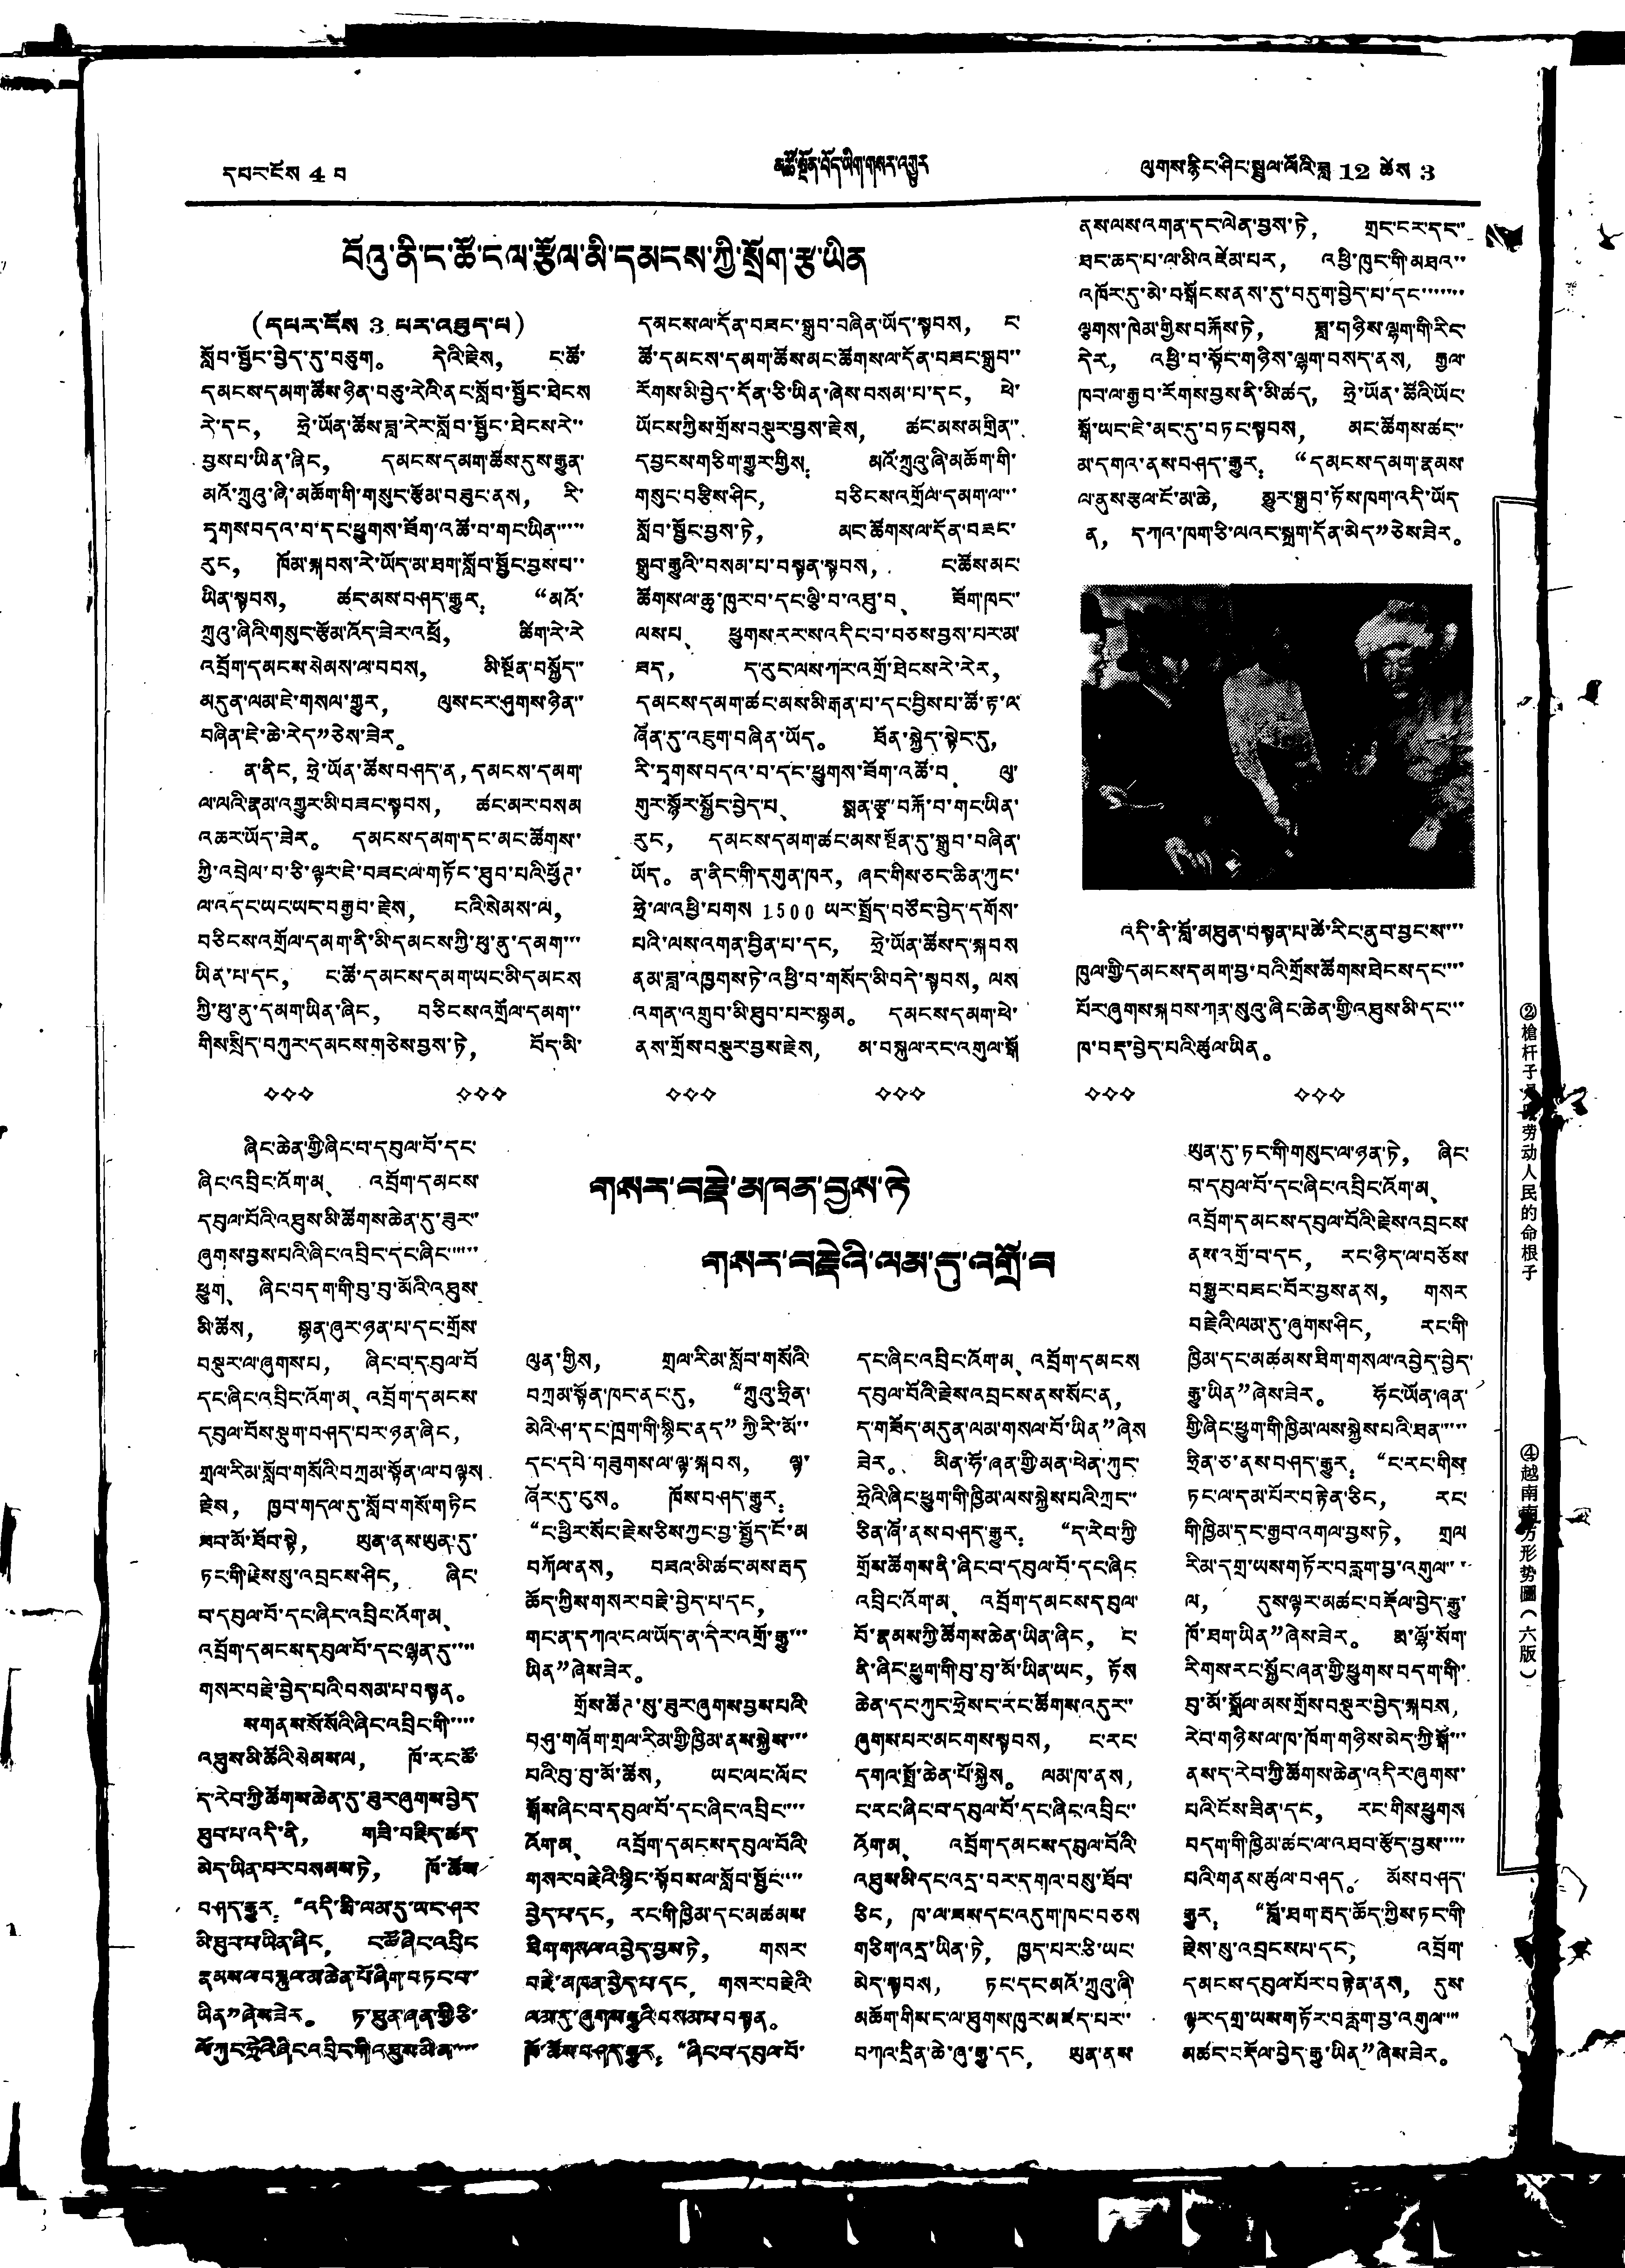དཔར་ངོས 4 པ མཆོ་སྔོན་བོད་ཡིག་གསར་འགྱུར ལུགས་རྙིང་ཤིང་སྦྲུལ་ལོའི་ཟླ 12 ཚེས 3
བོའུ་ནི་ང་ཚོ་ངལ་རྩོལ་མི་དམངས་ཀྱི་སྲོག་རྩ་ཡིན
(དཔར་ངོས 3 པར་འཐུད་ལ)
སློབ་སྦྱོང་བྱེད་དུ་བཅུག。 དེའི་རྗེས， ང་ཚོ་
དམངས་དམག་ཚོས་ཉིན་བཅུ་རེའི་ནང་སློབ་སྦྱོང་ཐེངས
རེ་དང， ཧྲེ་ཡོན་ཚོས་ཟླ་རེར་སློབ་སྦྱོང་ཐེངས་རེ་་
བྱས་པ་ཡིན་ཞིང， དམངས་དམག་ཚོས་དུས་རྒྱུན་
མའོ་ཀྲུའུ་ཞི་མཆོག་གི་གསུང་རྩོམ་བཟུང་ནས， རི་
དྭགས་བདའ་བ་དང་ཕྱུགས་ཟོག་འཚོ་བ་གང་ཡིན་་་་་
རུང， ཁོམ་སྐབས་རེ་ཡོད་མ་ཐག་སློབ་སྦྱོང་བྱས་པ་་
ཡིན་སྟབས， ཚང་མས་བཤད་རྒྱུར： “མའོ་
ཀྲུའུ་ཞིའི་གསུང་རྩོམ་འོད་ཟེར་འཕྲོ， ཚིག་རེ་རེ་
འབྲོག་དམངས་སེམས་ལ་བབས， མི་སྔོན་བསྐྱོད་་
མདུན་ལམ་ཇེ་གསལ་གྱུར， ལུས་ངར་ཤུགས་ཉིན་
བཞིན་ཇེ་ཆེ་རེད”ཅེས་ཟེར。
ན་ནིང，ཧྲེ་ཡོན་ཚོས་བཤད་ན，དམངས་དམག་
ལ་ལའི་རྣམ་འགྱུར་མི་བཟང་སྟབས， ཚང་མར་བསམ
འཆར་ཡོད་ཟེར。 དམངས་དམག་དང་མང་ཚོགས་་
ཀྱི་འབྲེལ་བ་ཅི་ལྟར་ཇེ་བཟང་ལ་གཏོང་ཐུབ་པའི་ཕྱོཊ་
ལ་འདང་ཡང་ཡང་བརྒྱབ་རྗེས， ངའི་སེམས་ལ，
བཅིངས་འགྲོལ་དམག་ནི་མི་དམངས་ཀྱི་ཕུ་ནུ་དམག་་་
ཡིན་པ་དང， ང་ཚོ་དམངས་དམག་ཡང་མི་དམངས
ཀྱི་ཕུ་ནུ་དམག་ཡིན་ཞིང， བཅིངས་འགྲོལ་དམག་་
གིས་སྲིད་བཀུར་དམངས་གཅེས་བྱས་ཏེ， བོད་མི་
དམངས་ལ་དོན་བཟང་སྒྲུབ་བཞིན་ཡོད་སྟབས， ང་
ཚོ་དམངས་དམག་ཚོས་མང་ཚོགས་ལ་དོན་བཟང་སྒྲུབ་་
རོགས་མི་བྱེད་དོན་ཅི་ཡིན་ཞེས་བསམ་པ་དང， ཕེ་
ཡོངས་ཀྱིས་གྲོས་བསྡུར་བྱས་རྗེས， ཚང་མས་མགྲིན་་
དབྱངས་གཅིག་གྱུར་གྱིས： མའོ་ཀྲུའུ་ཞི་མཆོག་གི་
གསུང་བརྩིས་ཤིང， བཅིངས་འགྲོལ་དམག་ལ་་་
སློབ་སྦྱོང་བྱས་ཏེ， མང་ཚོགས་ལ་དོན་བཟང་
སྒྲུབ་རྒྱུའི་བསམ་པ་བསྟན་སྟབས， ང་ཚོས་མང་
ཚོགས་ལ་ཆུ་ཁུར་བ་དང་ལྕི་བ་འཐུ་བ、 ཟོག་ཁང་་
ལས་པ、 ཕྱུགས་རར་ས་འདིང་བ་བཅས་བྱས་པར་མ་
ཟད， ད་རུང་ལས་ཀར་འགྲོ་ཐེངས་རེ་རེར，
དམངས་དམག་ཚང་མས་མི་རྒན་པ་དང་བྱིས་པ་ཚོ་རྟ་ལ་
ཞོན་དུ་འཇུག་བཞིན་ཡོད。 ཐོན་སྐྱེད་སྟེང་དུ，
རི་དྭགས་བདའ་བ་དང་ཕྱུགས་ཟོག་འཚོ་བ、 ལུ་
གུར་སྙོར་སྐྱོང་བྱེད་པ、 སྨན་རྩྭ་བརྐོ་བ་གང་ཡིན་
རུང， དམངས་དམག་ཚང་མས་སྔོན་དུ་སྒྲུབ་བཞིན་
ཡོད。 ན་ནིང་གི་དགུན་ཁར， ཞང་གིས་ཅང་ཆིན་ཀུང་
ཧྲེ་ལ་འཕྱི་པགས 1500 ཡར་སྤྲོད་བཙོང་བྱེད་དགོས་
པའི་ལས་འགན་བྱིན་པ་དང， ཧྲེ་ཡོན་ཚོས་ད་སྐབས།
ནམ་ཟླ་འཁྱགས་ཏེ་འཕྱི་བ་གསོད་མི་བདེ་སྟབས， ལས
འགན་འགྲུབ་མི་ཐུབ་པར་སྙམ。 དམངས་དམག་ཕེ་
ནས་གྲོས་བསྡུར་བྱས་རྗེས， མ་བསྐུལ་རང་འགུལ་སྒོ་
ནས་ལས་འགན་དང་ལེན་བྱས་ཏེ， གྲང་ངར་དང་་
ཐད་ཆད་པ་ལ་མི་འཛེམ་པར， འཕྱི་ཁུང་གི་མཐའ་་
འཁོར་དུ་མེ་བསྒོངས་ནས་དུ་བདུག་བྱེད་པ་དང་་་་་་་
ལྕགས་ཁེམ་གྱིས་བརྐོས་ཏེ， ཟླ་གཉིས་ལྷག་གི་རིང་
དེར， འཕྱི་བ་སྟོང་གཉིས་ལྷག་བསད་ནས， རྒྱལ་
ཁབ་ལ་རྒྱབ་རོགས་བྱས་ནི་མི་ཚད， ཧྲེ་ཡོན་ཚོའི་ཡོང་
སྒོ་ཡང་ཇེ་མང་དུ་བཏང་སྟབས， མང་ཚོགས་ཚང་་
མ་དགའ་ནས་བཤད་རྒྱུར： “དམངས་དམག་རྣམས་
ལ་ནུས་རྩལ་ངོ་མ་ཆེ， མྱུར་སྒྲུབ་ཏོས་ཁག་འདི་ཡོད
ན， དཀའ་ཁག་ཅི་ལའང་སྐྲག་དོན་མེད”ཅེས་ཟེར。
འདི་ནི་བློ་མཐུན་བསྟན་པ་ཚེ་རིང་ནུབ་བྱང་ས་་་་
ཁུལ་གྱི་དམངས་དམག་བྱ་བའི་གྲོས་ཚོགས་ཐེངས་དང་་་་
པོར་ཞུགས་སྐབས་ཀན་སུའུ་ཞིང་ཆེན་གྱི་འཐུས་མི་དང་་་
ཁ་བརྡ་བྱེད་པའི་ཚུལ་ཡིན。
གསར་བརྗེ་མཁན་བྱས་ཏེ
གསར་བརྗེའི་ལམ་དུ་འགྲོ་བ
ཞིང་ཆེན་གྱི་ཞིང་པ་དབུལ་བོ་དང་
ཞིང་འབྲིང་འོག་མ、 འབྲོག་དམངས་
དབུལ་བོའི་འཐུས་མ་ཚོགས་ཆེན་དུ་ཟུར་་
ཞུགས་བྱས་པའི་ཞིང་འབྲིང་དང་ཞིང་་་་་་
ཕྱུག、 ཞིང་བདག་གི་བུ་བུ་མོའི་འཐུས་
མི་ཚོས， སྙན་ཞུར་ཉན་པ་དང་གྲོས་
བསྡུར་ལ་ཞུགས་པ， ཞིང་བ་དབུལ་བོ་
དང་ཞིང་འབྲིང་འོག་མ、 འབྲོག་དམངས་
དབུལ་བོས་སྡུག་བཤད་པར་ཉན་ཞིང，
གྲལ་རིམ་སློབ་གསོའི་བཀྲམ་སྟོན་ལ་བལྟས
རྗེས， ཁྱབ་གདལ་དུ་སློབ་གསོ་གཏིང
ཟབ་མོ་ཐོབ་སྟེ， ཡུན་ནས་ཡུན་དུ་
ཏང་གི་རྗེསསུ་འབྲངས་ཤིང， ཞིང་
བ་དབུལ་བོ་དང་ཞིང་འབྲིང་འོག་མ、
འབྲོག་དམངས་དབུལ་བོ་དང་ལྷན་དུ་་་་
གསར་བརྗེ་བྱེད་པའི་བསམ་པ་བསྟན。
ས་གནས་སོ་སོའི་ཞིང་འབྲིང་གི་་་་་
འཐུས་མི་ཚོའི་སེམས་ལ， ཁོ་རང་ཚོ་
ད་རེབ་ཀྱི་ཚོགས་ཆེན་དུ་ཟུར་ཞུགས་བྱེད་
ཐུབ་པ་འདི་ནི， གཟི་བརྗིད་ཚད་
མེད་ཡིན་པར་བསམས་ཏེ， ཁོ་ཚོས
བཤད་རྒྱུར： “འདི་མི་ལམ་དུ་ཡང་ཤར་
མི་ཐུབ་པ་ཡིན་ཞིང， ང་ཚོ་ཞིང་འབྲིང
རྣམས་ལབསྣལམ་ཆེན་པོ་ཞིག་བཏང་བ་
ཡིན”ཞེས་ཟེར。 ཏ་ཐུན་ཞན་གྱི ཅི་
ལོ་ཀུང་ཧྲེའི་ཞིང་འབྲིང་གི་འཐུས་མི་མ་་་་
ལུན་གྱིས， གྲལ་རིམ་སློབ་གསོའི་
བཀྲམ་སྟོན་ཁང་ནང་དུ， “ཀྲུའུ་ཧྲིན་
མེའི་ཤ་དང་ཁྲག་གི་སྙིང་ནད” ཀྱི་རི་མོ་་
དང་དཔེ་གཟུགས་ལ་ལྟ་སྐབས， ལྷ་
ཞོར་དུ་ངུས。 ཁོས་བཤད་རྒྱུར：
“ང་ཕྱིར་སོང་རྗེས་ཅིས་ཀྱང་བྱ་སྤྱོད་ངོ་མ
བཀོལ་ནས， བཟའ་མི་ཚང་མས་རྦད་
ཆོད་ཀྱིས་གསར་བརྗེ་བྱེད་པ་དང，
གང་ན་དཀའ་ངལ་ཡོད་ན་དེར་འགྲོ་རྒྱུ་་་
ཡིན”ཞེས་ཟེར。
གྲོས་ཚོཊ་སུ་ཟུར་ཞུགས་བྱས་པའི་
བཤུ་གཞོག་གྲལ་རིམ་གྱི་ཁྱིམ་ནས་སྐྱེས་་་
པའི་བུ་བུ་མོ་ཚོས， ཡང་ལང་ལོང་
སྒོས་ཞིང་བ་དབུལ་པོ་དང་ཞིང་འབྲིང་་་་
འོག་མ、 འབྲོག་དམངས་དབུལ་བོའི་
གསར་བརྗེའི་སྙིང་སྟོབས་ལ་སློབ་སྦྱོང་་་་
བྱེད་པ་དང， རང་གི་ཁྱིམ་དང་མཚམས་
ཟིག་གསལ་འབྱེད་བྱས་ཏེ， གསར་
བརྗེ་མཁན་བྱེད་པ་དང， གསར་བརྗེའི་
ལམ་དུ་ཞུགས་རྒྱུའི་བསམ་པ་བསྟན。
ཁོ་ཚོས་བ་ཤད་གྱུར： “ཞིང་པ་དབུལ་བོ་
དང་ཞིང་འབྲིང་འོག་མ、 འབྲོག་དམངས
དབུལ་བོའི་རྗེས་འབྲངས་ནས་སོང་ན，
ད་གཟོད་མདུན་ལམ་གསལ་བོ་ཡིན”ཞེས
ཟེར。 མིན་ཧོ་ཞན་གྱི་མན་ཕེན་ཀུང་
ཧྲེའི་ཞིང་ཕྱུག་གི་ཁྱིམ་ལས་སྐྱེས་པའི་ཀྲང་་
ཅིན་ཞོ་ནས་བཤད་རྒྱུར： “ད་རེབ་ཀྱི་
གྲོས་ཚོགས་ནི་ཞིང་བ་དབུལ་བོ་དང་ཞིང་
འབྲིང་འོག་མ、 འབྲོག་དམངས་དབུལ་
པོ་རྣམས་ཀྱི་ཚོགས་ཆེན་ཡིན་ཞིང， ང་
ནི་ཞིང་ཕྱུག་གི་བུ་བུ་མོ་ཡིན་ཡང， ཏོས
ཆེན་དང་ཀུང་ཧྲེས་ང་རང་ཚོགས་འདུར་་
ཞུགས་པར་མངགས་སྟབས， ང་རང་
དགའ་སྤྲོ་ཆེན་པོ་སྐྱེས。 ལམ་ཁ་ནས，
ང་རང་ཞིང་བ་དབུལ་བོ་དང་ཞིང་འབྲིང་་
འོག་མ、 འབྲོག་དམངས་དབུལ་བོའི་
འཐུས་མི་དང་འདྲ་བར་དགའ་བསུ་ཐོབ་
ཅིང， ཁ་ལ་ཟས་དང་འདུག་ཁང་བཅས
གཅིག་འདྲ་ཡིན་ཏེ， ཁྱད་པར་ཅི་ཡང་
མེད་སྟབས， ཏང་དང་མའོ་ཀྲུའུ་ཞི་
མཆོག་གིས་ང་ལ་ཐུགས་ཁུར་མཛད་པར་་
བཀའ་དྲིན་ཆེ་ཞུ་རྒྱུ་དང， ཡུན་ནས་
ཡུན་དུ་ཏང་གི་གསུང་ལ་ཉན་ཏེ， ཞིང་
བ་དབུལ་བོ་དང་ཞིང་འབྲིང་འོག་མ、
འབྲོག་དམངས་དབུལ་བོའི་རྗེས་འབྲངས་
ནས་འགྲོ་བ་དང， རང་ཉིད་ལ་བཅོས་
བསྒྱུར་བཟང་བོར་བྱས་ནས， གསར
བརྗེའི་ལམ་དུ་ཞུགས་ཤིང， རང་གི་
ཁྱིམ་དང་མཚམས་ཟིག་གསལ་འབྱེད་བྱེད་
རྒྱུ་ཡིན”ཞེས་ཟེར。 ཧོང་ཡོན་ཞན་
གྱི་ཞིང་ཕྱུག་གི་ཁྱིམ་ལས་སྐྱེས་པའི་ཐན་་་་་
ཧྲིན་ཅ་ནས་བཤད་རྒྱུར： “ང་རང་གིས་
ཏང་ལ་དམ་པོར་བརྟེན་ཅིང， རང་
གི་ཁྱིམ་དང་རྒྱབ་འགལ་བྱས་ཏེ， གྲལ
རིམ་དགྲ་ཡས་གཏོར་བརླག་བྱ་འགུལ་་་
ལ， དུས་ལྟར་མཚང་བརྡོལ་བྱེད་རྒྱུ་
ཁོ་ཐག་ཡིན”ཞེས་ཟེར。 མ་ལྷོ་སོག་
རིགས་རང་སྐྱོང་ཞན་གྱི་ཕྱུགས་བདག་གི་་
བུ་མོ་སྒྲོལ་མས་གྲོས་བསྡུར་བྱེད་སྐབས，
རེབ་གཉིས་ལ་ཁ་ཁོག་གཉིས་མེད་ཀྱི་སྒོ་་་
ནས་ད་རེབ་ཀྱི་ཚོགས་ཆེན་འདིར་ཞུགས་
པའི་ངོས་ཟིན་དང， རང་གིས་ཕྱུགས
བདག་གི་ཁྱིམ་ཚང་ལ་འཐབ་རྩོད་བྱས་་་་་
པའི་གནས་ཚུལ་བཤད。 མོས་བཤད་
རྒྱུར： “བློ་ཐག་རྦད་ཆོད་ཀྱིས་ཏང་གི་
རྗེས་སུ་འབྲངས་པ་དང， འབྲོག་
དམངས་དབུལ་པོར་བརྟེན་ནས， དུས་
ལྟར་དགྲ་ཡས་གཏོར་བརླག་བྱ་འགུལ་་་་
མཚང་བརྡོལ་བྱེད་རྒྱུ་ཡིན”ཞེས་ཟེར。
②槍杆子是我劳动人民的命根子
④越南南方形势圖（六版）
